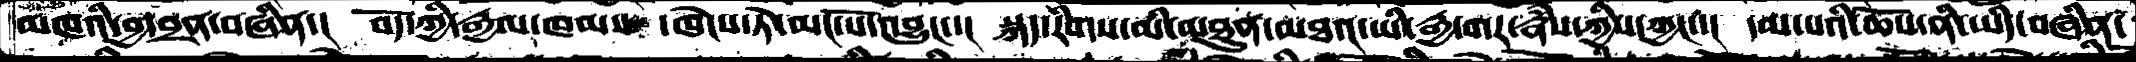མཁའི་བྱ་བྲན་བཞིན་།  བོད་ཀྱི་རྒྱལ་ཁམས་ཁེངས་ཏེ་མང་པོ་འབྱུང་་།  སྐད་རིགས་མི་མཐུན་མཐའ་ཡི་རྒྱ་གར་རྣཾས་ཀྱིས་ཀྱང་་།  དམ་པའི་ཆོས་ནི་ཡིད་བཞིན་
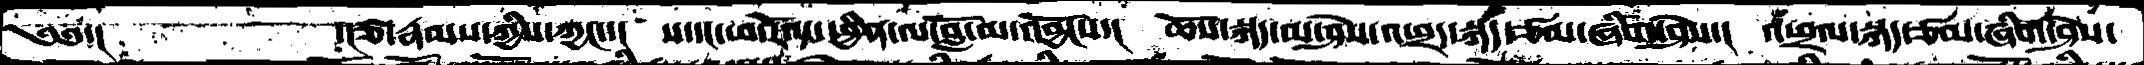༄༅་།         ་།ཙ་རྣམས་ཀྱིས་ཀྱང་་།   ས་དང་ཕ་རོལ་ཕྱིན་ལ་བློ་མ་འབྱོངས་།  ཆོས་སྐད་མ་ཤེས་འཕྲད་སྐད་ཙམ་ཞིག་ཤེས་།   འཕྲལ་སྐད་ཙམ་ཞིག་ཤེས་
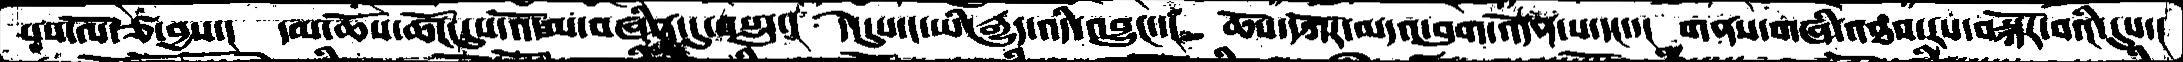པས་ལོ་ཙ་བྱས་།  དམ་ཆོས་ཚོང་དུས་འོ་མ་བཞིན་དུ་བསླད་།  དེ་དུས་ང་ཡི་རྒྱུད་འདི་འབྱུང་་།   ཆོས་དཀར་མདའ་བུག་འདོན་པ་དང་་།  གནས་གཞི་འཐབ་རས་བསྐོར་བའི་དུས་།
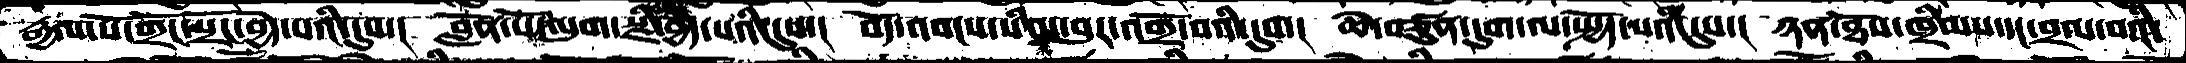རྒྱལ་པོ་གྲོང་སྲོང་བྱེད་པའི་དུས་།  བློན་པོ་ལུག་སྫི་བྱེད་པའི་དུས་།  བོད་འབངས་སིལ་བུར་འགྲོ་བའི་དུས་།  ཆེ་བཙུན་དུག་ལ་སྤྱོད་པའི་དུས་།  ཉན་ཐོས་ཁྲིམས་དང་བྲལ་བའི་
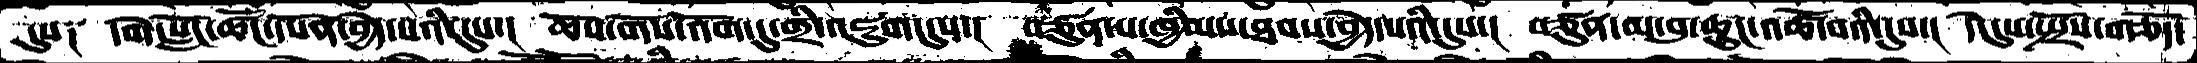དུས༑  དགེ་སློང་ཚོང་དཔོན་བྱེད་པའི་དུས་།  ཆོས་གོས་འོག་དུ་གྲི་འཇུག་དུས་།  བཙུན་པ་ཁྱིམས་ཐབས་བྱེད་པའི་དུས་།  བཙུན་མ་བུ་ཆུང་འཚོ་བའི་དུས་།  དེ་དུས་སྤྲོས་གཅོད་
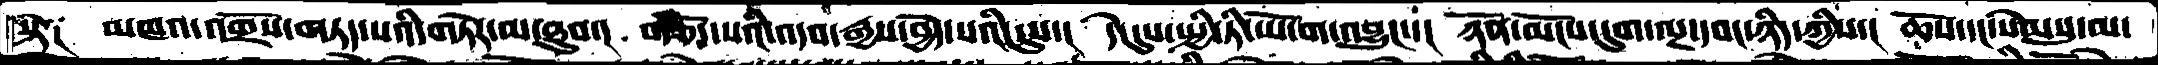སྟེ༑  མཁའ་འགྲོས་གཏད་པའི་གཏེར་མ་ཐུབ་།  གཅོད་པའི་འདབ་རྒྱས་བྱེད་པའི་དུས་།  དེ་དུས་སྤྱི་ཏི་ཡོ་ག་འབྱུང་་།  ཉོན་མོངས་དུག་ལྔ་དབང་ཉིད་ཀྱིས་།  ཆོས་དང་སེམསུ་མ་
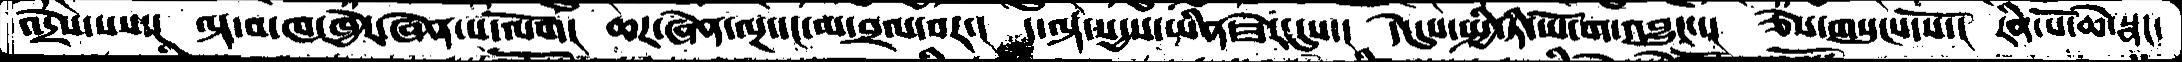འདྲེས་པས་།  ལྟ་བ་ཁ་ཁྱེར་ཞེན་པ་ལོག།  ཆར་ཞེན་ལྔ་དང་མ་བྲལ་བར་།  ད་ལྟ་སདྱས་ཡིན་ཟེར་དུས་།  དེ་དུས་སྤྱི་ཏི་ཡོ་ག་འབྱུང་།  ཅེས་གསུངས་སོ་།  རིན་པོ་ཆེ་སྣང་
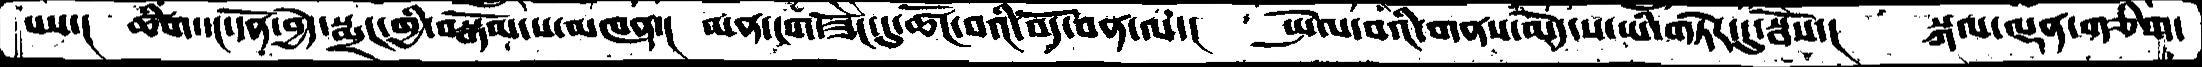པས་།  ཚིག་དང་དོན་བྱེད་སྨྲང་གྱི་བསྒོམ་པ་མཁན་།  མན་ངག་ཟོང་དུ་ཚོང་བའི་བོད་བན་ལ་།  སྤེལ་བའི་གནས་མེད་ས་ཡི་གཏེར་དུ་སྦོས་།  སྐལ་ལྡན་གཅིག་
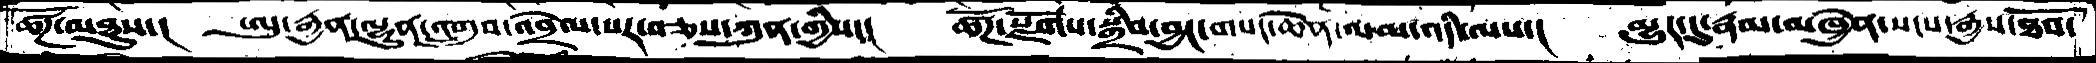ཚོཌ་མཐུས་།   ཨུ་རྒྱན་ལྷུན་འགྲུབ་འབྲེལ་པར་བཅས་ཀུན་གྱིས་།  ཚོཌ་སྫོགས་སྒྲིབ་བྱང་གསང་ཆེན་ལམ་འདི་ལས་།  མྱུར་དུ་རྣམ་མཁྱེན་སངས་རྒྱས་ཐོབ་
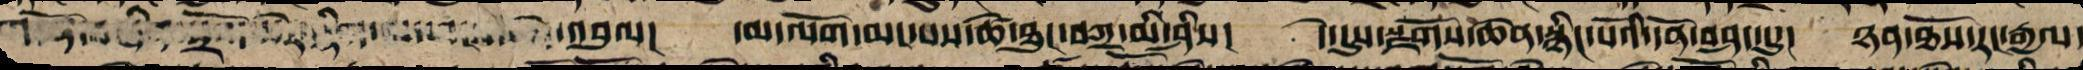འབུལ། དམ་ལོག་མང་བས་ཚེ་ཐུང་བཀྲ་མི་ཤིས། དེ་དུས་རྫོགས་ཆེན་སྙིང་པོའི་དོན་བཤད་ན། ཉན་ཐོས་རང་རྒྱལ་
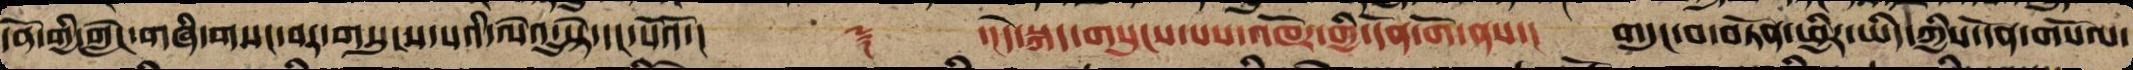དོན་གྱི་གླེང་གཞི་གསང་བར་གསུངས་པའི་ལེའུ་སྟེ་དང་པོའོ།   ༈   ་།དེ་སྐད་གསུངས་པས་འཁོར་གྱི་དོན་གོ་ནས་། གདུང་བ་བཏོན་ཕྱིར་ཡིད་ཀྱིས་དོན་གསོལ་
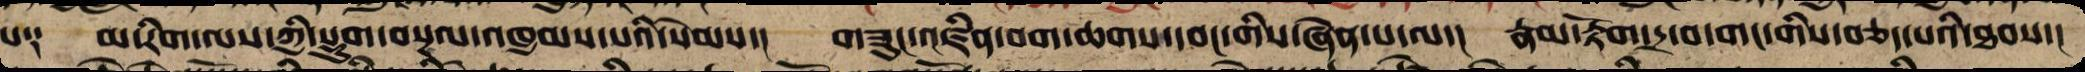པ༑ མ་རིག་ལས་ཀྱི་སྡུག་བསྔལ་འཁྱམས་པའི་སེམས། གཟུང་འཛིན་བག་ཆགས་དབང་གིས་ཞེན་པ་ལ་། རྣམ་རྟོག་དྲ་བ་གང་གིས་བཅད་པའི་ཐབས་།
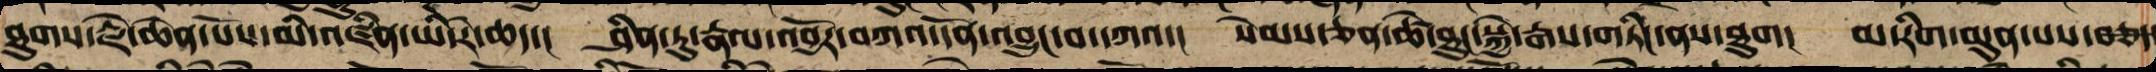ཐུགས་རྗེ་ཆེན་པོས་མི་འཛིན་ཡི་རེ་ཆད་།   ཤིན་ཏུ་རྣལ་འབྱོར་བཀའ་དོན་འབྱུང་བ་དཀའ་། སེམས་ཅན་ཚེ་ཐུང་སྐྱེ་རྒས་གཏིང་ནས་ཐུག། མ་རིག་མུན་པས་བཅད་
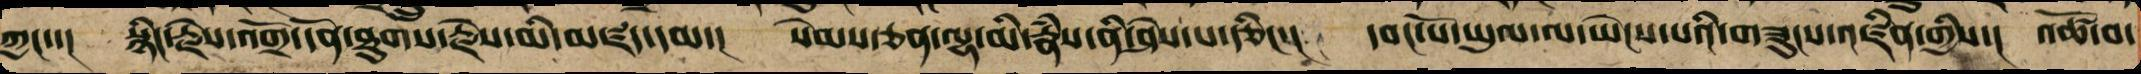ཀྱང་་།  སྙིང་རྗེས་འགྲོ་དོན་ཐུགས་རྗེས་མི་མཛད་དམ་།   སེམས་ཅན་ལྷ་མི་རྣཾས་ནི་ཤེས་པ་རྩིང་།   དབང་པོ་ཡུལ་ལ་གཡེངས་པའི་གཟུངས་འཛིན་གྱིས་། འཚོ་བ་
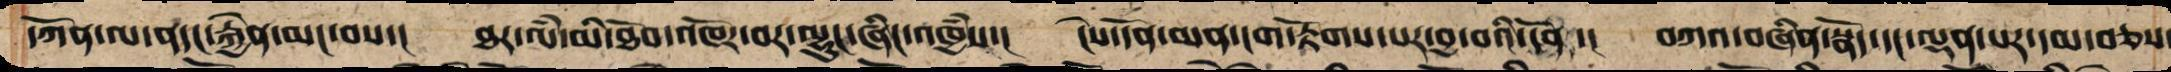དཀོན་ལ་ནདང་རྐྱེན་མང་བས་།   ཐར་ལཾ་མི་འཐོབ་འཁོར་བར་ལྷུང་ཞིང་འཁྱཾས་།   ངེས་དོན་མན་ངག་རྟོགས་པར་བྱ་བའི་དོན་།   བཀའ་བཞིན་སྣོད་དང་ལྡན་པར་དམ་བཅས་
